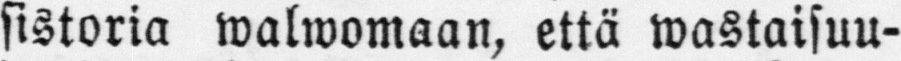sistoria walwomaan, että wastaisuu-
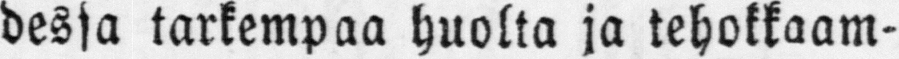dessa tarkempaa huolta ja tehokkaam-
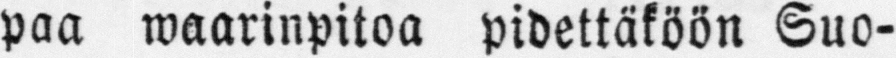paa waarinpitoa pidettäköön Suo-
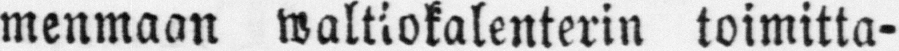menmaan waltiokalenterin toimitta-
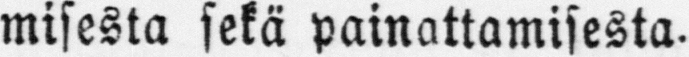misesta sekä painattamisesta.
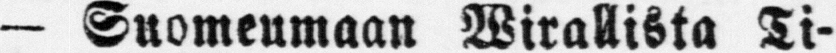— Suomeumaan Wirallista Ti-
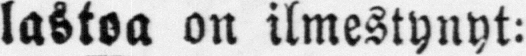lastoa on ilmestynyt:
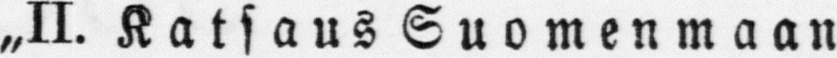„II. Katsaus Suomenmaan
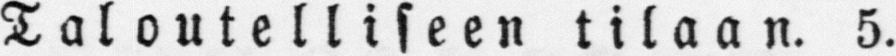Taloutelliseen tilaan. 5.
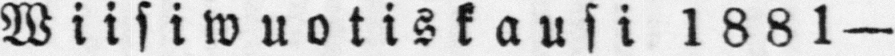Wiisiwuotiskausi 1881 —
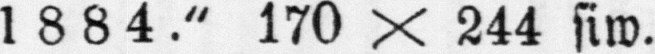1884." 170 X 244 siw.
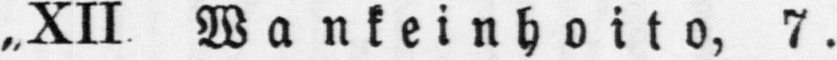„XII Wankeinhoito, 7.
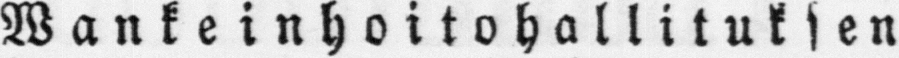Wankeinhoitohallituksen
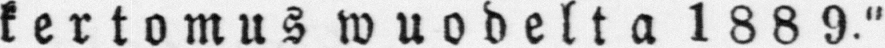kertomus wuodelta 1889."
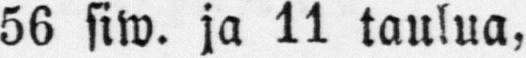56 siw. ja 11 taulua,
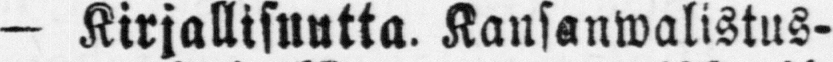— Kirjallisuutta. Kansanwalistus-
